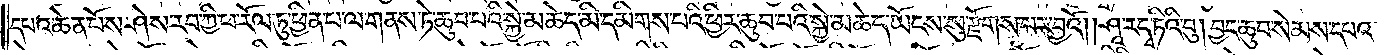དཔའ་ཆེན་པོས་ཤེས་རབ་ཀྱི་ཕ་རོལ་ཏུ་ཕྱིན་པ་ལ་གནས་ཏེ་ཆུབ་པའི་སྐྱེ་མཆེད་མི་དམིགས་པའི་ཕྱིར་ཆུབ་པའི་སྐྱེ་མཆེད་ཡོངས་སུ་རྫོགས་པར་བྱའོ། །ཤཱ་ར་དྭ་ཏིའི་བུ། བྱང་ཆུབ་སེམས་དཔའ་
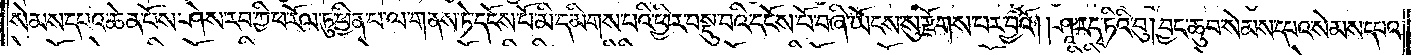སེམས་དཔའ་ཆེན་པོས་ཤེས་རབ་ཀྱི་ཕ་རོལ་ཏུ་ཕྱིན་པ་ལ་གནས་ཏེ་དངོས་པོ་མི་དམིགས་པའི་ཕྱིར་བསྡུ་བའི་དངོས་པོ་བཞི་ཡོངས་སུ་རྫོགས་པར་བྱའོ། །ཤཱ་ར་དྭ་ཏིའི་བུ། བྱང་ཆུབ་སེམས་དཔའ་སེམས་དཔའ་
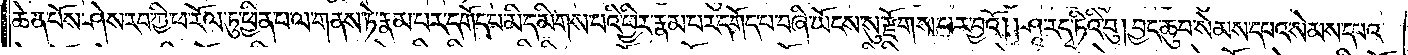ཆེན་པོས་ཤེས་རབ་ཀྱི་ཕ་རོལ་ཏུ་ཕྱིན་པ་ལ་གནས་ཏེ་རྣམ་པར་དགོད་པ་མི་དམིགས་པའི་ཕྱིར་རྣམ་པར་དགོད་པ་བཞི་ཡོངས་སུ་རྫོགས་པར་བྱའོ། །ཤཱ་ར་དྭ་ཏིའི་བུ། བྱང་ཆུབ་སེམས་དཔའ་སེམས་དཔའ་
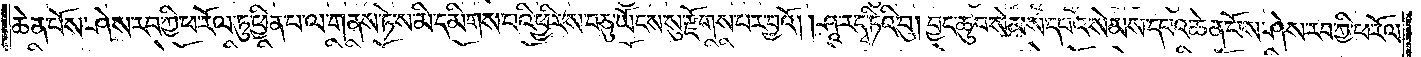ཆེན་པོས་ཤེས་རབ་ཀྱི་ཕ་རོལ་ཏུ་ཕྱིན་པ་ལ་གནས་ཏེ་མི་དམིགས་པའི་ཕྱིར་ས་བཅུ་ཡོངས་སུ་རྫོགས་པར་བྱའོ། །ཤཱ་ར་དྭ་ཏིའི་བཅུ། བྱང་ཆུབ་སེམས་དཔའ་སེམས་དཔའ་ཆེན་པོས་ཤེས་རབ་ཀྱི་ཕ་རོལ་
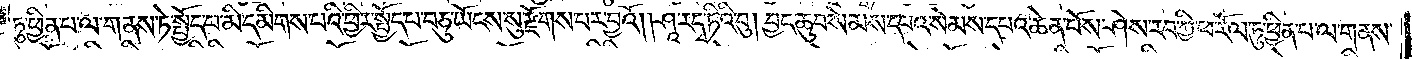ཏུ་ཕྱིན་པ་ལ་གནས་ཏེ་སྤྱོད་པ་མི་དམིགས་པའི་ཕྱིར་སྤྱོད་པ་བཅུ་ཡོངས་སུ་རྫོགས་པར་བྱའོ། །ཤཱ་ར་དྭ་ཏིའི་བུ། བྱང་ཆུབ་སེམས་དཔའ་སེམས་དཔའ་ཆེན་པོས་ཤེས་རབ་ཀྱི་ཕ་རོལ་ཏུ་ཕྱིན་པ་ལ་གནས་
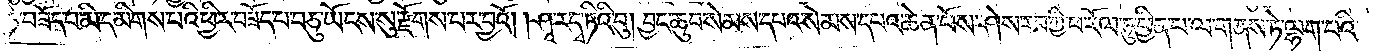ཏེ་བཟོད་པ་མི་དམིགས་པའི་ཕྱིར་བཟོད་པ་བཅུ་ཡོངས་སུ་རྫོགས་པར་བྱའོ། །ཤཱ་ར་དྭ་ཏིའི་བུ། བྱང་ཆུབ་སེམས་དཔའ་སེམས་དཔའ་ཆེན་པོས་ཤེས་རབ་ཀྱི་ཕ་རོལ་ཏུ་ཕྱིན་པ་ལ་གནས་ཏེ་ལྷག་པའི་
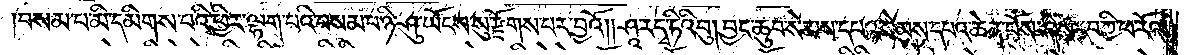བསམ་པ་མི་དམིགས་པའི་ཕྱིར་ལྷག་པའི་བསམ་པ་ཉི་ཤུ་ཡོངས་སུ་རྫོགས་པར་བྱའོ། །ཤཱ་ར་དྭ་ཏིའི་བུ། བྱང་ཆུབ་སེམས་དཔའ་སེམས་དཔའ་ཆེན་པོས་ཤེས་རབ་ཀྱི་ཕ་རོལ་
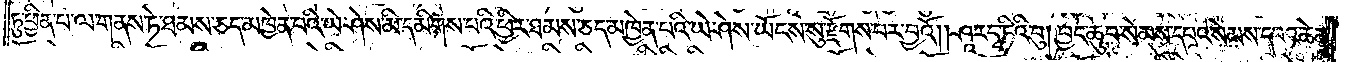ཏུ་ཕྱིན་པ་ལ་གནས་ཏེ་ཐམས་ཅད་མཁྱེན་པའི་ཡེ་ཤེས་མི་དམིགས་པའི་ཕྱིར་ཐམས་ཅད་མཁྱེན་པའི་ཡེ་ཤེས་ཡོངས་སུ་རྫོགས་པར་བྱའོ། །ཤཱ་ར་དྭ་ཏིའི་བུ། བྱང་ཆུབ་སེམས་དཔའ་སེམས་དཔའ་ཆེན་
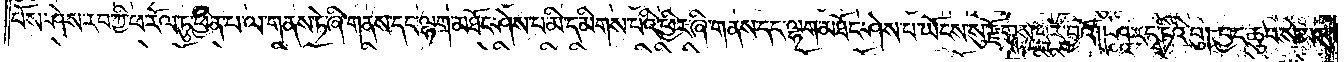པོས་ཤེས་རབ་ཀྱི་ཕ་རོལ་ཏུ་ཕྱིན་པ་ལ་གནས་ཏེ་ཞི་གནས་དང་ལྷག་མཐོང་ཤེས་པ་མི་དམིགས་པའི་ཕྱིར་ཞི་གནས་དང་ལྷག་མཐོང་ཤེས་པ་ཡོངས་སུ་རྫོགས་པར་བྱའོ༎ ཤཱ་ར་དྭ་ཏིའི་བུ། བྱང་ཆུབ་སེམས་
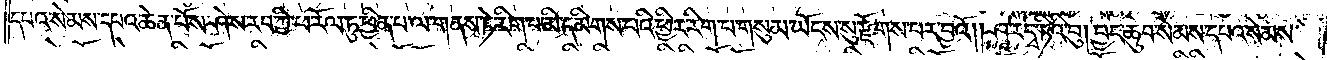དཔའ་སེམས་དཔའ་ཆེན་པོས་ཤེས་རབ་ཀྱི་ཕ་རོལ་ཏུ་ཕྱིན་པ་ལ་གནས་ཏེ་རིག་པ་མི་དམིགས་པའི་ཕྱིར་རིག་པ་གསུམ་ཡོངས་སུ་རྫོགས་པར་བྱའོ། །ཤཱ་ར་དྭ་ཏིའི་བུ། བྱང་ཆུབ་སེམས་དཔའ་སེམས་
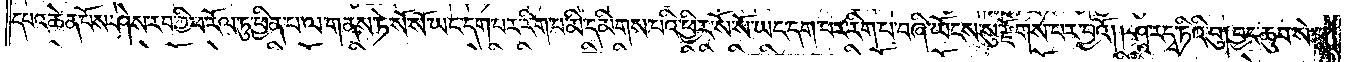དཔའ་ཆེན་པོས་ཤེས་རབ་ཀྱི་ཕ་རོལ་ཏུ་ཕྱིན་པ་ལ་གནས་ཏེ་སོ་སོ་ཡང་དག་པར་རིག་པ་མི་དམིགས་པའི་ཕྱིར་སོ་སོ་ཡང་དག་པར་རིག་པ་བཞི་ཡོངས་སུ་རྫོགས་པར་བྱའོ། །ཤཱ་ར་དྭ་ཏིའི་བུ། བྱང་ཆུབ་སེམས་
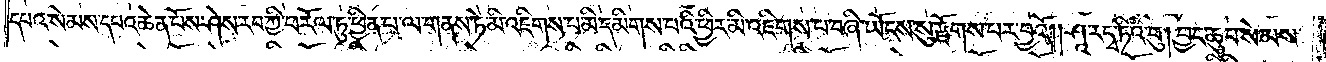དཔའ་སེམས་དཔའ་ཆེན་པོས་ཤེས་རབ་ཀྱི་ཕ་རོལ་ཏུ་ཕྱིན་པ་ལ་གནས་ཏེ་མི་འཇིགས་པ་མི་དམིགས་པའི་ཕྱིར་མི་འཇིགས་པ་བཞི་ཡོངས་སུ་རྫོགས་པར་བྱའོ༎ ཤཱ་ར་དྭ་ཏིའི་བུ། བྱང་ཆུབ་སེམས་
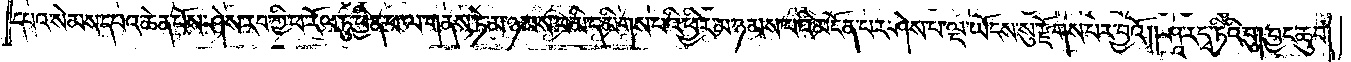དཔའ་སེམས་དཔའ་ཆེན་པོས་ཤེས་རབ་ཀྱི་ཕ་རོལ་ཏུ་ཕྱིན་པ་ལ་གནས་ཏེ་མ་ཉམས་པ་མི་དམིགས་པའི་ཕྱིར་མ་ཉམས་པའི་མངོན་པར་ཤེས་པ་ལྔ་ཡོངས་སུ་རྫོགས་པར་བྱའོ༎ ཤཱ་ར་དྭ་ཏིའི་བུ། བྱང་ཆུབ་
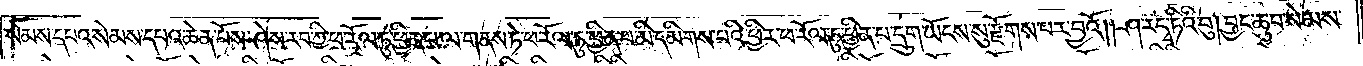སེམས་དཔའ་སེམས་དཔའ་ཆེན་པོས་ཤེས་རབ་ཀྱི་ཕ་རོལ་ཏུ་ཕྱིན་པ་ལ་གནས་ཏེ་ཕ་རོལ་ཏུ་ཕྱིན་པ་མི་དམིགས་པའི་ཕྱིར་ཕ་རོལ་ཏུ་ཕྱིན་པ་དྲུག་ཡོངས་སུ་རྫོགས་པར་བྱའོ༎ ཤ་ར་དྭ་ཏིའི་བུ། བྱང་ཆུབ་སེམས་
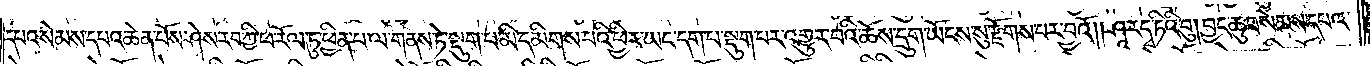དཔའ་སེམས་དཔའ་ཆེན་པོས་ཤེས་རབ་ཀྱི་ཕ་རོལ་ཏུ་ཕྱིན་པ་ལ་གནས་ཏེ་སྡུག་པ་མི་དམིགས་པའི་ཕྱིར་ཡང་དག་པ་སྡུག་པར་འགྱུར་བའི་ཆོས་དྲུག་ཡོངས་སུ་རྫོགས་པར་བྱའོ༎ ཤཱ་ར་དྭ་ཏིའི་བུ། བྱང་ཆུབ་སེམས་དཔའ་
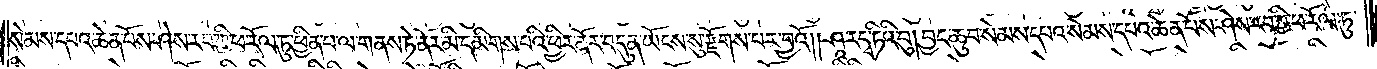སེམས་དཔའ་ཆེན་པོས་ཤེས་རབ་ཀྱི་ཕ་རོལ་ཏུ་ཕྱིན་པ་ལ་གནས་ཏེ་ནོར་མི་དམིགས་པའི་ཕྱིར་ནོར་བདུན་ཡོངས་སུ་རྫོགས་པར་བྱའོ༎ ཤཱ་ར་དྭ་ཏིའི་བུ། བྱང་ཆུབ་སེམས་དཔའ་སེམས་དཔའ་ཆེན་པོས་ཤེས་རབ་ཀྱི་ཕ་རོལ་ཏུ་
